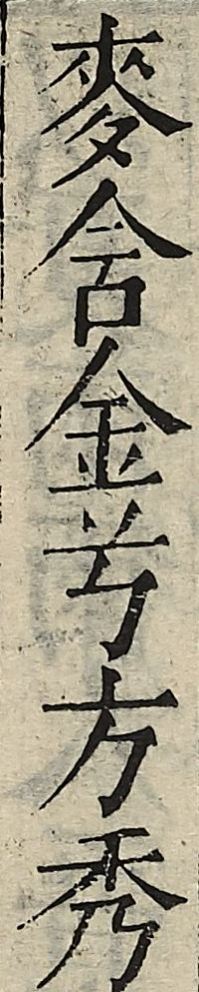麥含金兮方秀
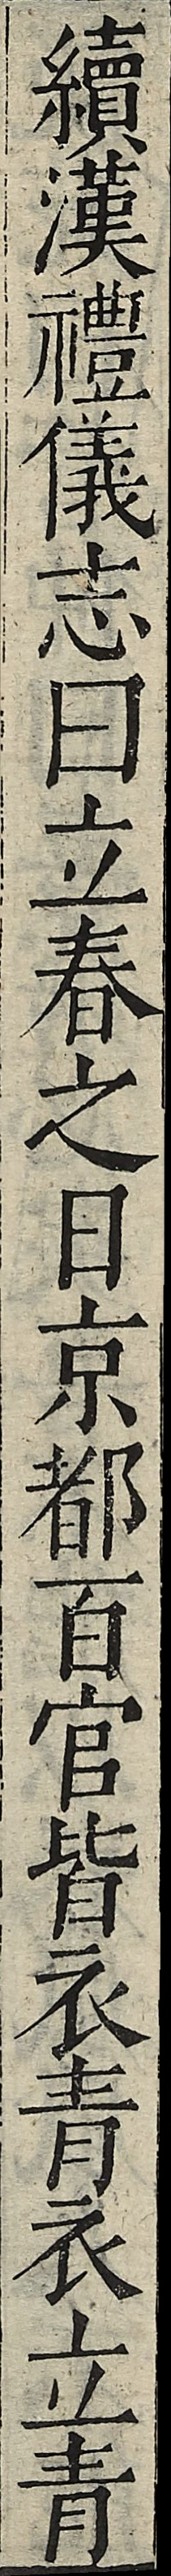續漢禮儀志曰立春之日京都百官皆衣青衣立青
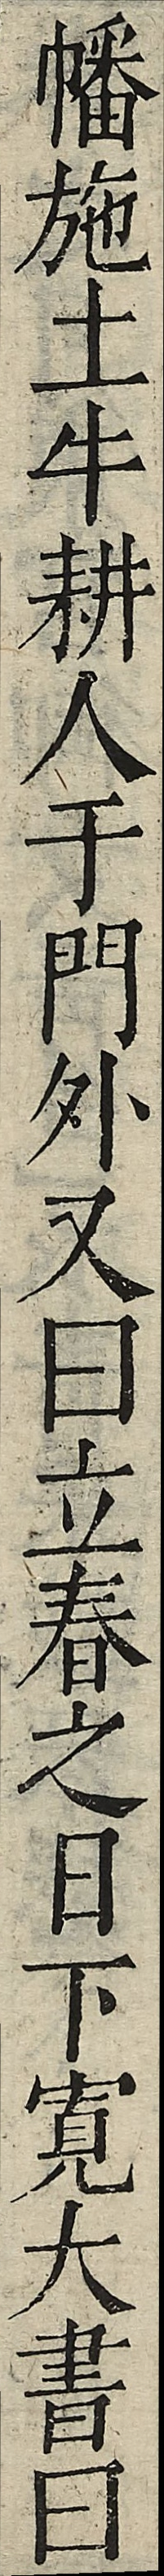幡施土牛耕人于門外又曰立春之日下寬大書曰
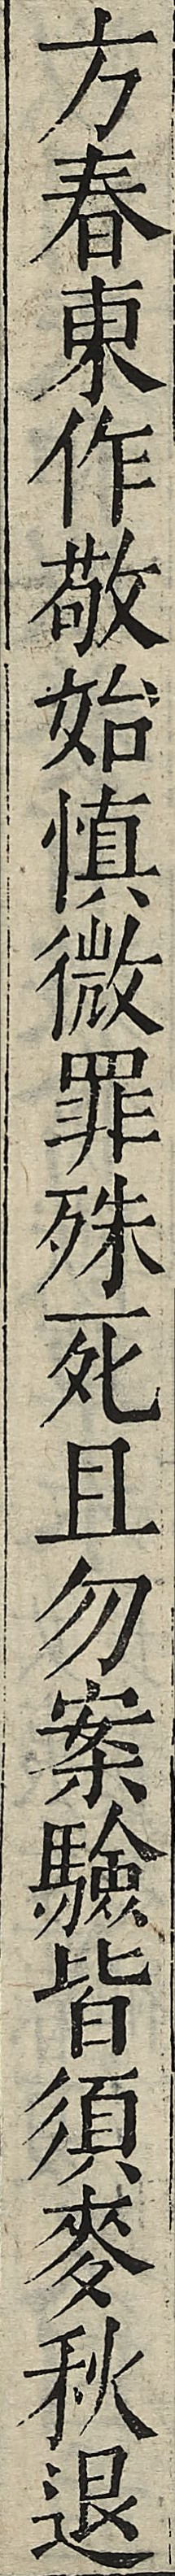方春東作敬始慎微罪殊死且勿案驗皆須麥秋退
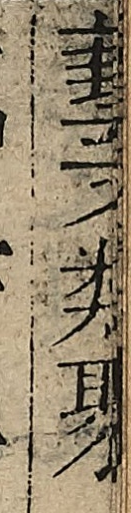藝文類聚
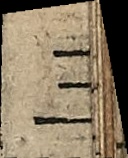三一
